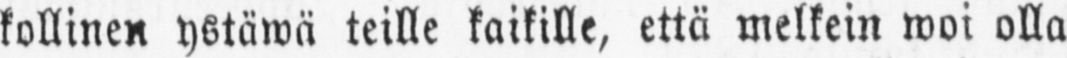kollinen ystäwä teille kaikille, että melkein woi olla
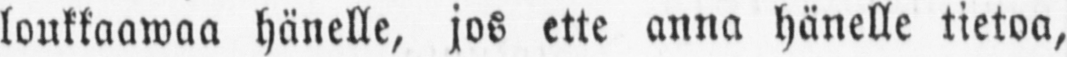loukkaawaa hänelle, jos ette anna hänelle tietoa,
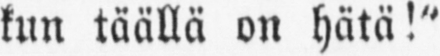kun täällä on hätä!"
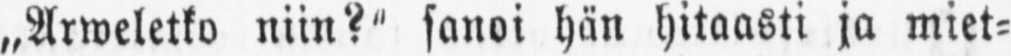„Arweletko niin?" sanoi hän hitaasti ja miet-
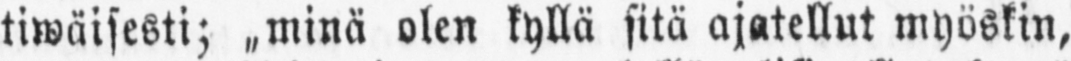tiwäisesti; ˶minä olen kyllä sitä ajatellut myöskin,
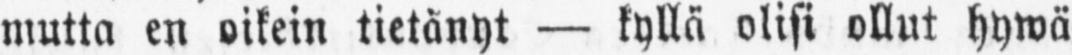mutta en oikein tietänyt — kyllä olisi ollut hywä
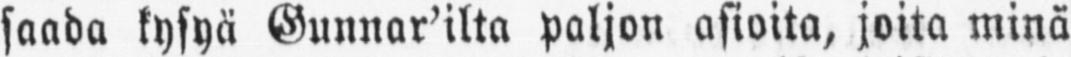saada kysyä Gunnar'ilta paljon asioita, joita minä
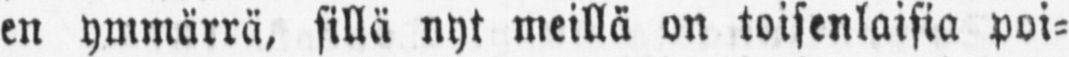en ymmärrä, sillä nyt meillä on toisenlaisia poi-
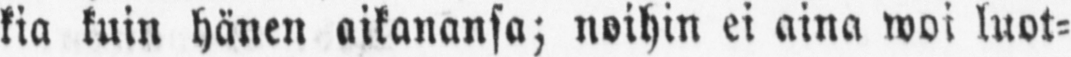kia kuin hänen aikanansa; noihin ei aina woi luot-
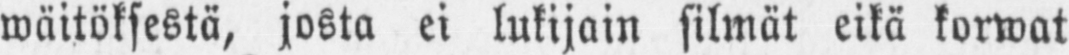wäitöksestä, josta ei lukijain silmät eikä korwat
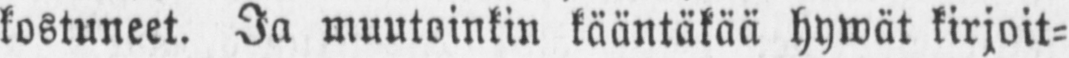kostuneet. Ja muutoinkin kääntäkää hywät kirjoit-
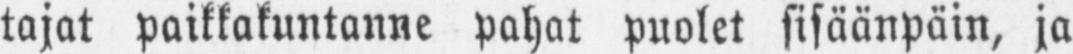tajat paikkakuntanne pahat puolet sisäänpäin, ja
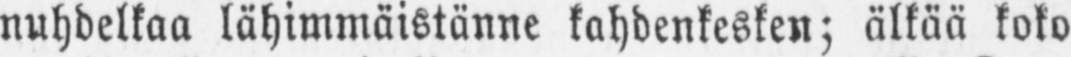nuhdelkaa lähimmäistänne kahdenkesken; älkää koko
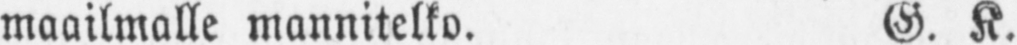maailmalle mannitelko. G. K.
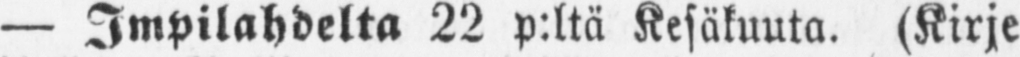— Impilahdelta 22 p:ltä Kesäkuuta. (Kirje
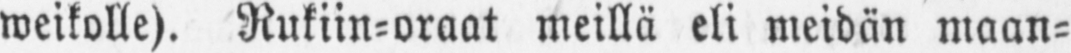weikolle). Rukiin-oraat meillä eli meidän maan-
